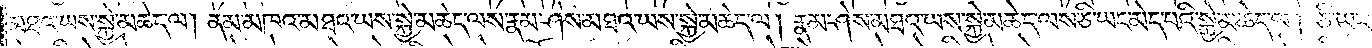མཐའ་ཡས་སྐྱེ་མཆེད་ལ། ནམ་མཁའ་མཐའ་ཡས་སྐྱེ་མཆེད་ལས་རྣམ་ཤེས་མཐའ་ཡས་སྐྱེ་མཆེད་ལ། རྣམ་ཤེས་མཐའ་ཡས་སྐྱེ་མཆེད་ལས་ཅི་ཡང་མེད་པའི་སྐྱེ་མཆེད་ལ། ཅི་ཡང་
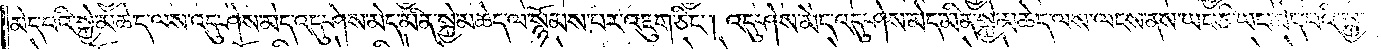མེད་པའི་སྐྱེ་མཆེད་ལས་འདུ་ཤེས་མེད་འདུ་ཤེས་མེད་མིན་སྐྱེ་མཆེད་ལ་སྙོམས་པར་འཇུག་ཅིང༌། འདུ་ཤེས་མེད་འདུ་ཤེས་མེད་མིན་སྐྱེ་མཆེད་ལས་ལངས་ནས་ཡང་ཅི་ཡང་མེད་པའི་སྐྱེ་
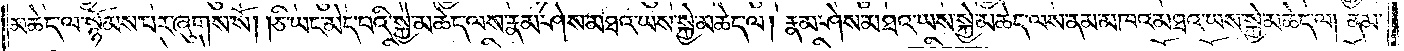མཆེད་ལ་སྙོམས་པར་ཞུགས་སོ། །ཅི་ཡང་མེད་པའི་སྐྱེ་མཆེད་ལས་རྣམ་ཤེས་མཐའ་ཡས་སྐྱེ་མཆེད་ལ། རྣམ་ཤེས་མཐའ་ཡས་སྐྱེ་མཆེད་ལས་ནམ་མཁའ་མཐའ་ཡས་སྐྱེ་མཆེད་ལ། ནམ་
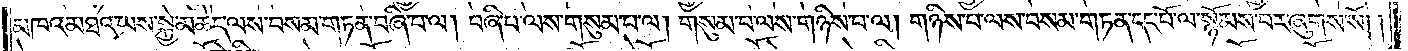མཁའ་མཐའ་ཡས་སྐྱེ་མཆེད་ལས་བསམ་གཏན་བཞི་པ་ལ། བཞི་པ་ལས་གསུམ་པ་ལ། གསུམ་པ་ལས་གཉིས་པ་ལ། གཉིས་པ་ལས་བསམ་གཏན་དང་པོ་ལ་སྙོམས་པར་ཞུགས་སོ། །
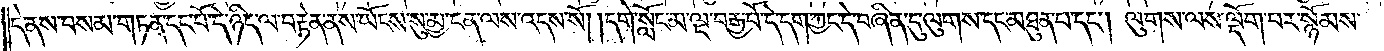དེ་ནས་བསམ་གཏན་དང་པོ་དེ་ཉིད་ལ་བརྟེན་ནས་ཡོངས་སུ་མྱ་ངན་ལས་འདས་སོ། །དགེ་སློང་མ་ལྔ་བརྒྱ་པོ་དེ་དག་ཀྱང་དེ་བཞིན་དུ་ལུགས་དང་མཐུན་པ་དང༌། ལུགས་ལས་ལྡོག་པར་སྙོམས་
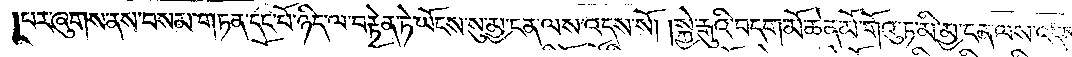པར་ཞུགས་ནས་བསམ་གཏན་དང་པོ་ཉིད་ལ་བརྟེན་ཏེ་ཡོངས་སུ་མྱ་ངན་ལས་འདས་སོ། །སྐྱེ་རྒུའི་བདག་མོ་ཆེན་མོ་གོའུ་ཏ་མི་མྱ་ངན་ལས་འདས་
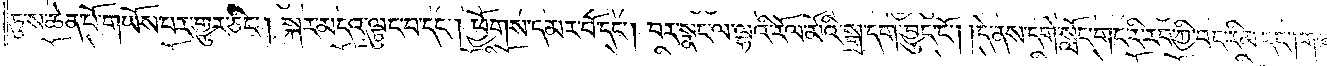ཏུ་ས་ཆེན་པོ་གཡོས་པར་གྱུར་ཅིང༌། སྐར་མདའ་ལྟུང་བ་དང༌། ཕྱོགས་དམར་པོ་དང༌། བར་སྣང་ལ་ལྷའི་རོལ་མོའི་སྒྲ་དག་བྱུང་ངོ༌། །དེ་ནས་དགེ་སློང་གང་རི་རབ་ཀྱི་བང་རིམ་དང༌། གཞན་
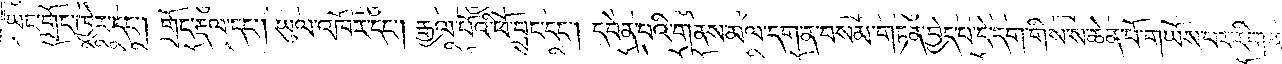ཡང་གྲོང་ཁྱེར་དང༌། གྲོང་རྡལ་དང༌། ཡུལ་འཁོར་དང༌། རྒྱལ་པོའི་ཕོ་བྲང་དང༌། དབེན་པའི་གནས་མལ་དག་ན་བསམ་གཏན་བྱེད་པ་དེ་དག་གིས་ས་ཆེན་པོ་གཡོས་པར་རིག་ནས་
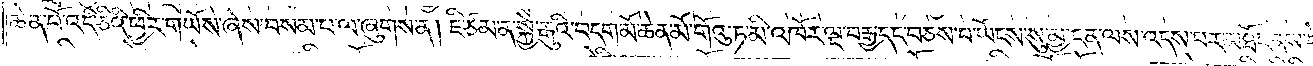ཆེན་པོ་འདི་ཅིའི་ཕྱིར་གཡོས་ཞེས་བསམ་པ་ལ་ཞུགས་ན། ཇི་ཙམ་ན་སྐྱེ་རྒུའི་བདག་མོ་ཆེན་མོ་གོའུ་ཏ་མི་འཁོར་ལྔ་བརྒྱ་དང་བཅས་པ་ཡོངས་སུ་མྱ་ངན་ལས་འདས་པར་མཐོང་ནས་དེ་
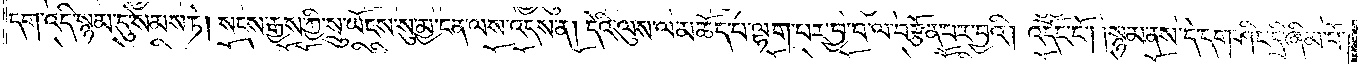དག་འདི་སྙམ་དུ་སེམས་ཏེ། སངས་རྒྱས་ཀྱི་སྲུ་ཡོངས་སུ་མྱ་ངན་ལས་འདས་ན། དེའི་ལུས་ལ་མཆོད་པ་ལྷག་པར་བྱ་བ་ལ་བརྩོན་པར་བྱའི། འདོང་ངོ༌། །སྙམ་ནས་དེ་དག་ཤིང་དྲི་ཞིམ་པོ་
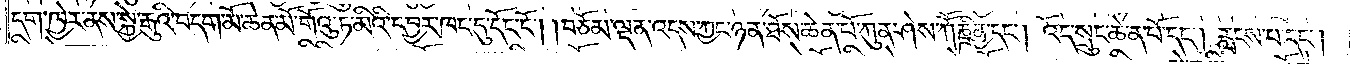དག་ཁྱེར་ནས་སྐྱེ་རྒུའི་བདག་མོ་ཆེན་མོ་གོའུ་ཏ་མིའི་དབྱར་ཁང་དུ་དོང་ངོ༌། །བཅོམ་ལྡན་འདས་ཀྱང་ཉན་ཐོས་ཆེན་པོ་ཀུན་ཤེས་ཀཽཎྜིནྱ་དང༌། འོད་སྲུང་ཆེན་པོ་དང༌། རླངས་པ་དང༌།
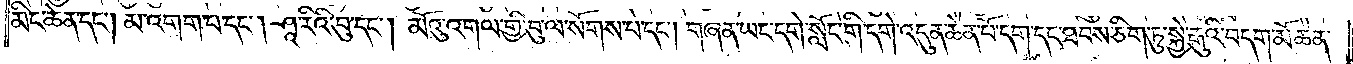མིང་ཆེན་དང༌། མ་འགག་པ་དང༌། ཤཱ་རིའི་བུ་དང༌། མོའུ་འགལ་གྱི་བུ་ལ་སོགས་པ་དང༌། གཞན་ཡང་དགེ་སློང་གི་དགེ་འདུན་ཆེན་པོ་དག་དང་ཐབས་ཅིག་ཏུ་སྐྱེ་རྒུའི་བདག་མོ་ཆེན་
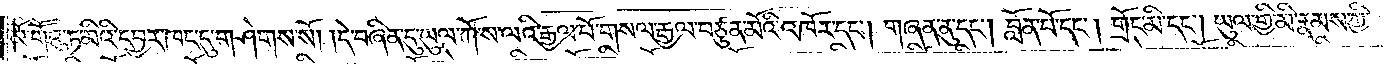མོ་གཽའུ་ཏ་མིའི་དབྱར་ཁང་དུ་གཤེགས་སོ། །དེ་བཞིན་དུ་ཡུལ་ཀོ་ས་ལའི་རྒྱལ་པོ་གསལ་རྒྱལ་བཙུན་མོའི་འཁོར་དང༌། གཞན་ནུ་དང༌། བློན་པོ་དང༌། གྲོང་མི་དང༌། ཡུལ་གྱི་མི་རྣམས་ཀྱི་
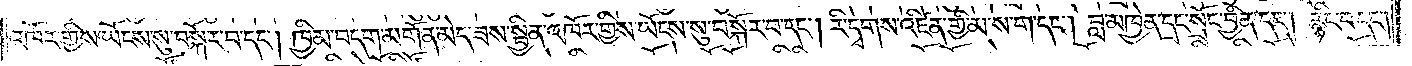འཁོར་གྱིས་ཡོངས་སུ་བསྐོར་བ་དང༌། ཁྱིམ་བདག་མགོན་མེད་ཟས་སྦྱིན་འཁོར་གྱིས་ཡོངས་སུ་བསྐོར་བ་དང༌། རི་དྭགས་འཛིན་གྱི་མ་ས་ག་དང༌། བླ་མཁྱེན་དྲང་སྲོང་བྱིན་དང༌། རྙིང་བ་དང༌།
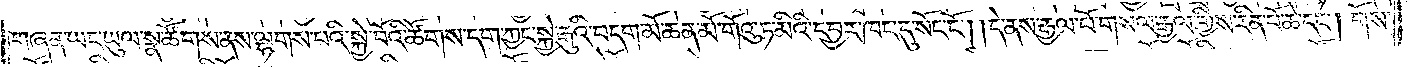གཞན་ཡང་ཡུལ་སྣ་ཚོགས་ནས་ལྷགས་པའི་སྐྱེ་བོའི་ཚོགས་དག་ཀྱང་སྐྱེ་རྒུའི་བདག་མོ་ཆེན་མོ་གོའུ་ཏ་མིའི་དབྱར་ཁང་དུ་སོང་ངོ༌། །དེ་ནས་རྒྱལ་པོ་གསལ་རྒྱལ་གྱིས་རིན་པོ་ཆེ་དང༌། གོས་
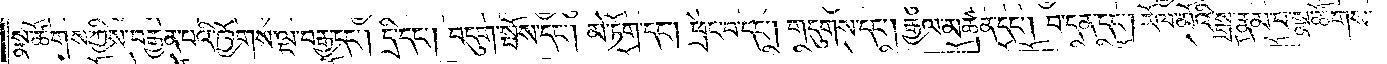སྣ་ཚོགས་ཀྱིས་བརྒྱན་པའི་ཁྱོགས་ལྔ་བརྒྱ་དང༌། དྲི་དང༌། བདུག་སྤོས་དང༌། མེ་ཏོག་དང༌། ཕྲེང་བ་དང༌། གདུགས་དང༌། རྒྱལ་མཚན་དང༌། བ་དན་དང༌། རོལ་མོའི་སྒྲ་རྣམ་པ་སྣ་ཚོགས་
